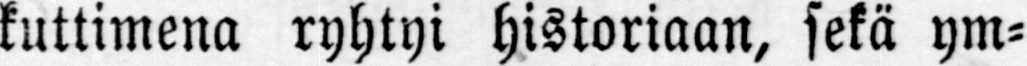kuttimena ryhtyi historiaan, sekä ym-
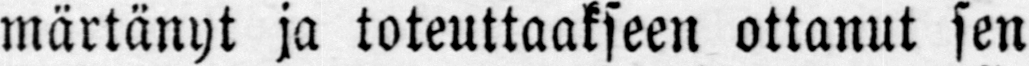märtänyt ja toteuttaakseen ottanut sen
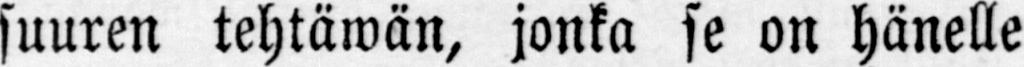suuren tehtäwän, jonka se on hänelle
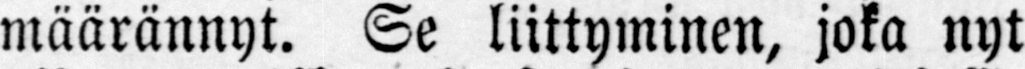määrännyt. Se liittyminen, joka nyt
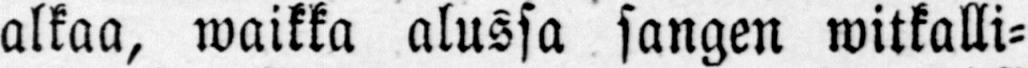alkaa, waikka alussa sangen witkalli-
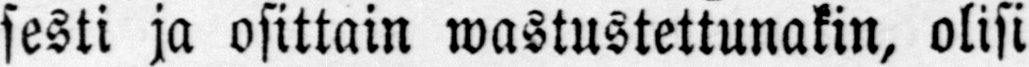sesti ja osittain wastustettunakin, olisi
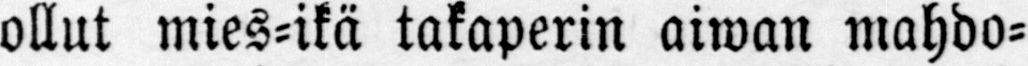ollut mies-ikä takaperin aiwan mahdo-
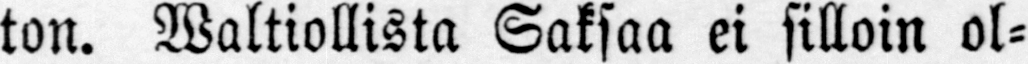ton. Waltiollista Saksaa ei silloin ol-
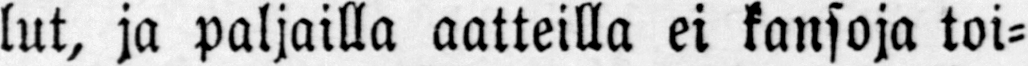lut, ja paljailla aatteilla ei kansoja toi-
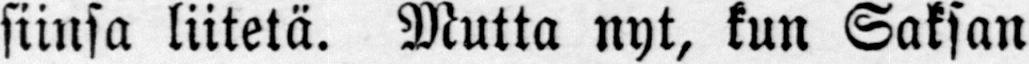siinsa liitetä. Mutta nyt, kun Saksan
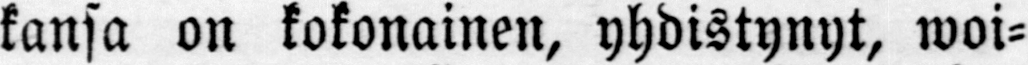kansa on kokonainen, yhdistynyt, woi-
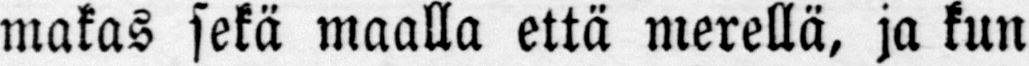makas sekä maalla että merellä, ja kun
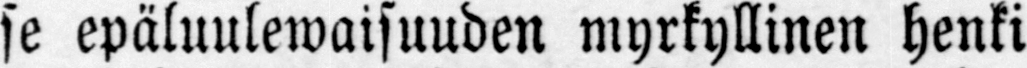se epäluulewaisuuden myrkyllinen henki
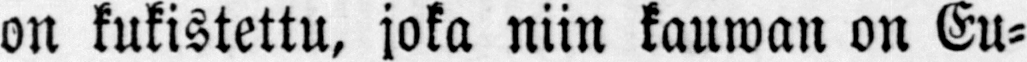on kukistettu, joka niin kauwan on Eu-
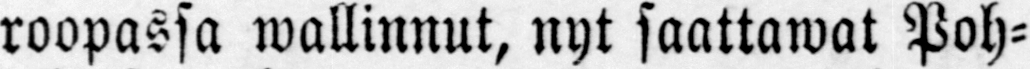roopassa wallinnut, nyt saattawat Poh-
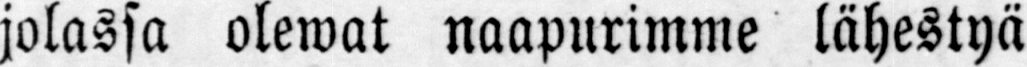jolassa olewat naapurimme lähestyä
